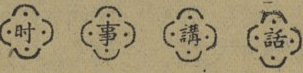时 事 講 話
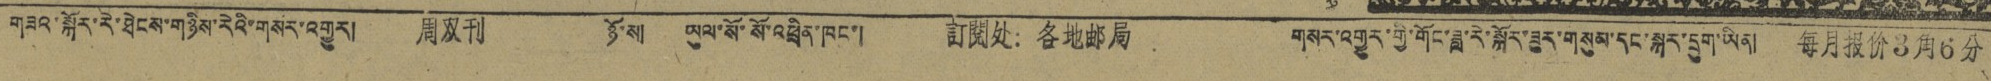གཟའ་སྐོར་རེ་ཐེངས་གཉིས་རེའི་གསར་འགྱུར། 周双刊 ཉོ་ས། ཡུལ་སོ་སོའི་འཕྲིན་ཁང་། 訂閱处：各地邮局 གསར་འགྱུར་གྱི་གོང་ཟླ་རེ་སྒོར་ཟུར་གསུམ་དང་སྐར་དྲུག་ཡིན། 每月报价3角6分
